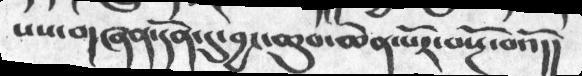པས་གཞན་དོན་དུ་བྱང་ཆུབ་ཆེན་པོར་བསྔོ་བའོ།།
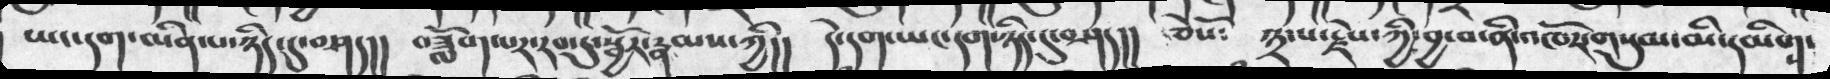ཡང་དག་མིན་པ་ཉིད་དུ་བཤད།།  བཟློག་པར་རབ་དུ་སྦྱོར་རྣམས་ཀྱི།།  དེ་དག་ཡང་དག་ཉིད་དུ་བཤད།།  ཅེསོ༴  ༣་པ་རྗེས་ཀྱི་བྱ་བ་ནི་འཁོར་གསུམ་མི་དམིག་
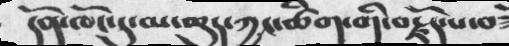དོན་ཁོང་དུ་མ་ཆུད་ཀྱང་ཚིག་གི་བརྗོད་པ་བ
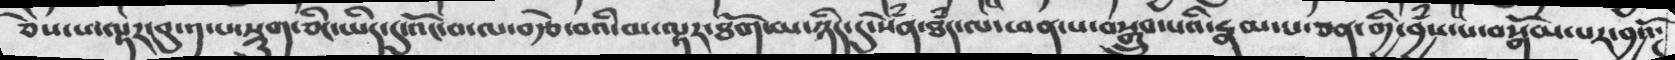ཅེས་པ་ལྟར་བུ་༡་པ་སྡུག་ཅིང་ཡིད་དུ་འོང་བ་ལ་བརྩེ་བའི་མ་ལྟར་ཐོག་མ་ཉིད་དུ་སེཾན་ཐཾད་ལ་ཕན་པ་བསྒྲུབ་པའི་རྣམ་པ་ཅན་གྱི་བྱཾས་པ་བསྒོམ་པར་བྱའོ
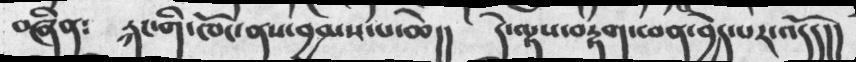བཞིན༴ རྐང་གི་ཁོང་ནས་བྱམས་པ་ཆེ།། དེ་ལྟས་བརྟག་ཕན་བྱེད་པར་འདོད།།
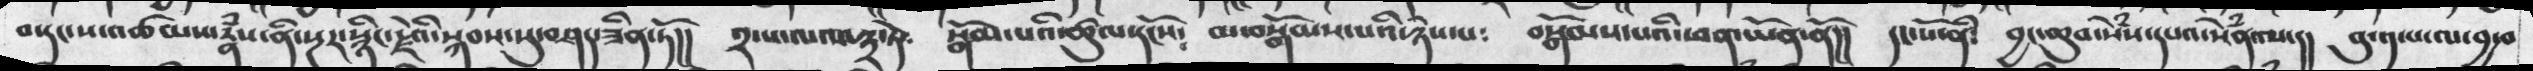བ་དང་ས་འཚམས་རྣཾས་ནི་སྔར་སྙིང་རྗེའི་སྐབས་སུ་བཤད་ཟིན་ཏོ།། ༢་པ་ལ་ས་༣་ཏེ་ སྒོམ་པའི་ཚུལ་དངོས༴ མ་བསྒོམས་པའི་ཉེས་པ༴ བསྒོམས་པའི་ཕན་ཡོན་ནོ།། དང་པོ་ནི༴ བྱང་ཆུབ་སེཾས་དཔའ་སེཾན་ལ་།། བུ་༡་པ་ལ་བྱ་བ
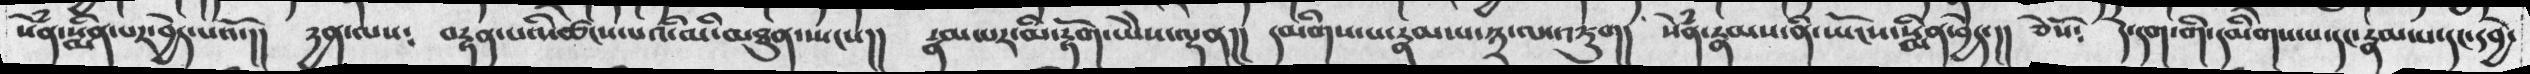སེཾན་སྨིན་པར་བྱེད་པའོ་།། དྱན་ལས༴ བརྟན་པའི་ཚངས་པའི་མི་མཐུན་སྤངས།། རྣམ་པར་མི་རྟོག་ཡཻས་ལྡན།། དམིགས་པ་རྣམ་པ་༣་ལ་འཇུག། སེཾན་རྣམས་ནི་ཡོངས་སྨིན་བྱེད་།། ཅེསོ༴ དེ་དག་གི་དམིགས་པ་དང་རྣམ་པ་དང་དབྱེ་
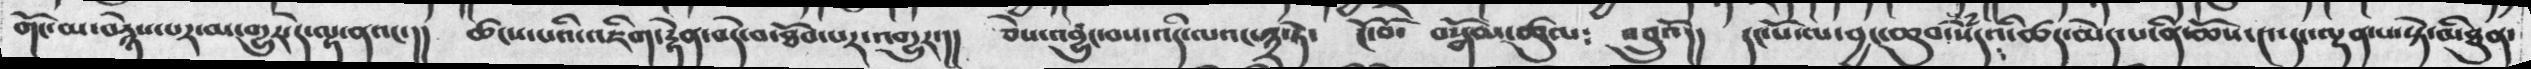གོང་མ་བརྙེས་པར་མ་གྱུར་དེ་ལྟ་ནའང་།། ཚངས་པའི་འཇིག་རྟེན་བདེ་བ་ཐོབ་པར་འགྱུར་།། ཅེས་འབྱུང་བས་འདི་ལའང་༣་ཏེ་ ངོ་བོ་ བསྒོམ་ཚུལ༴ འབྲུའོ།། དང་པོ་ལ་བྱང་ཆུབ་སེཾདའི་ཚད་མེད་པ་ནི་ཆོས་༤་དང་ལྡན་པ་སྟེ་མིཐུན་
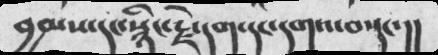བྱམས་དང་སྙིང་རྗེ་དག་དང་དགའ་བ་དང་།།
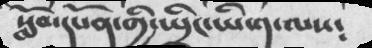སློབ་དཔོན་གྱི་སྤྲིང་ཡིག་ལས༴
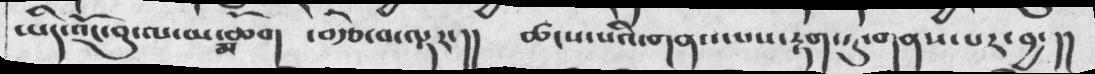ཡིད་འོང་བུ་ལ་མ་མཆོབ།   ་བརྩེ་བ་ལྟར་།།   ཚངས་པའི་གནས་ལས་རྟག་ཏུ་གནས་པར་བྱ་།།
